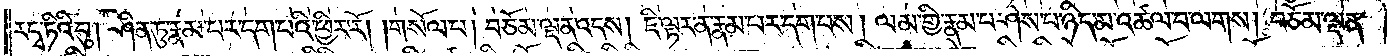ར་དྭ་ཏིའི་བུ། ཤིན་ཏུ་རྣམ་པར་དག་པའི་ཕྱིར་རོ། །གསོལ་པ། བཅོམ་ལྡན་འདས། ཇི་ལྟར་ན་རྣམ་པར་དག་པས། ལམ་གྱི་རྣམ་པ་ཤེས་པ་ཉིད་མ་འཚལ་བ་ལགས། བཅོམ་ལྡན་
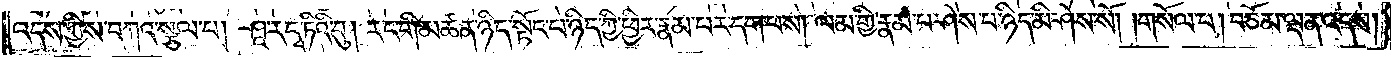འདས་ཀྱིས་བཀའ་སྩལ་པ། ཤཱ་ར་དྭ་ཏིའི་བུ། རང་གི་མཚན་ཉིད་སྟོང་པ་ཉིད་ཀྱི་ཕྱིར་རྣམ་པར་དག་པས། ལམ་གྱི་རྣམ་པ་ཤེས་པ་ཉིད་མི་ཤེས་སོ། །གསོལ་པ། བཅོམ་ལྡན་འདས།
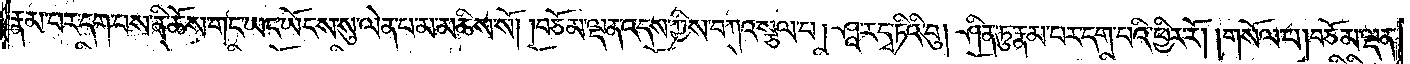རྣམ་པར་དག་པས་ནི་ཆོས་གང་ཡང་ཡོངས་སུ་ལེན་པ་མ་མཆིས་སོ། །བཅོམ་ལྡན་འདས་ཀྱིས་བཀའ་སྩལ་པ། ཤཱ་ར་དྭ་ཏིའི་བུ། ཤིན་ཏུ་རྣམ་པར་དག་པའི་ཕྱིར་རོ། །གསོལ་པ། བཅོམ་ལྡན་
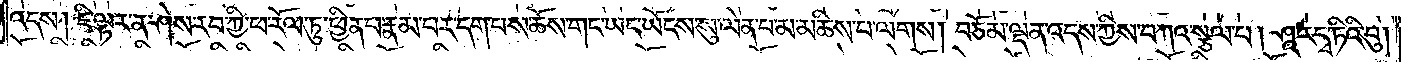འདས། ཇི་ལྟར་ན་ཤེས་རབ་ཀྱི་ཕ་རོལ་ཏུ་ཕྱིན་པ་རྣམ་པར་དག་པས་ཆོས་གང་ཡང་ཡོངས་སུ་ལེན་པ་མ་མཆིས་པ་ལགས། བཅོམ་ལྡན་འདས་ཀྱིས་བཀའ་སྩལ་པ། ཤཱ་ར་དྭ་ཏིའི་བུ།
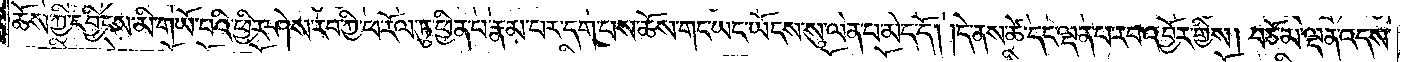ཆོས་ཀྱི་དབྱིངས་མི་གཡོ་བའི་ཕྱིར་ཤེས་རབ་ཀྱི་ཕ་རོལ་ཏུ་ཕྱིན་པ་རྣམ་པར་དག་པས་ཆོས་གང་ཡང་ཡོངས་སུ་ལེན་པ་མེད་དོ། །དེ་ནས་ཚེ་དང་ལྡན་པ་རབ་འབྱོར་གྱིས། བཅོམ་ལྡན་འདས་
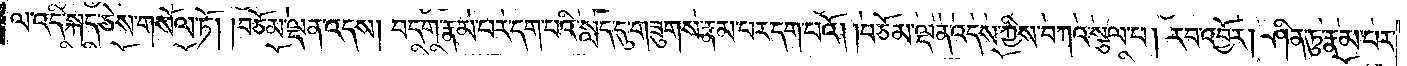ལ་འདི་སྐད་ཅེས་གསོལ་ཏོ། །བཅོམ་ལྡན་འདས། བདག་རྣམ་པར་དག་པའི་སླད་དུ་གཟུགས་རྣམ་པར་དག་པའོ། །བཅོམ་ལྡན་འདས་ཀྱིས་བཀའ་སྩལ་པ། རབ་འབྱོར། ཤིན་ཏུ་རྣམ་པར་
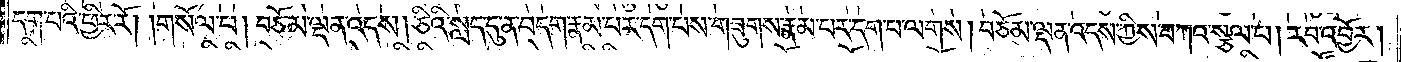དག་པའི་ཕྱིར་རོ། །གསོལ་པ། བཅོམ་ལྡན་འདས། ཅིའི་སླད་དུ་ནི་བདག་རྣམ་པར་དག་པས་གཟུགས་རྣམ་པར་དག་པ་ལགས། བཅོམ་ལྡན་འདས་ཀྱིས་བཀའ་སྩལ་པ། རབ་འབྱོར།
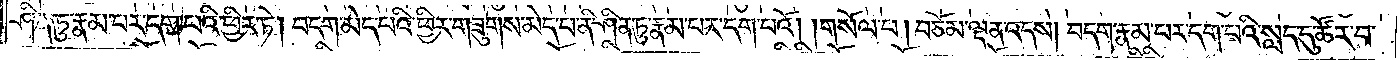ཤིན་ཏུ་རྣམ་པར་དག་པའི་ཕྱིར་ཏེ། བདག་མེད་པའི་ཕྱིར་གཟུགས་མེད་པ་ནི་ཤིན་ཏུ་རྣམ་པར་དག་པའོ། །གསོལ་པ། བཅོམ་ལྡན་འདས། བདག་རྣམ་པར་དག་པའི་སླད་དུ་ཚོར་བ་
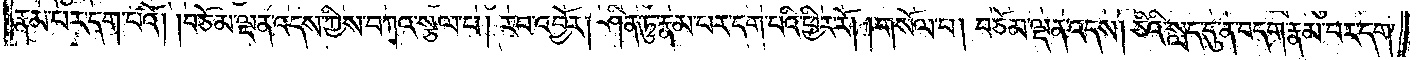རྣམ་པར་དག་པའོ། །བཅོམ་ལྡན་འདས་ཀྱིས་བཀའ་སྩལ་པ། རབ་འབྱོར། ཤིན་ཏུ་རྣམ་པར་དག་པའི་ཕྱིར་རོ། །གསོལ་པ། བཅོམ་ལྡན་འདས། ཅིའི་སླད་དུ་ནི་བདག་རྣམ་པར་དག་
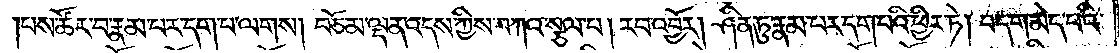པས་ཚོར་བ་རྣམ་པར་དག་པ་ལགས། བཅོམ་ལྡན་འདས་ཀྱིས་བཀའ་སྩལ་པ། རབ་འབྱོར། ཤིན་ཏུ་རྣམ་པར་དག་པའི་ཕྱིར་ཏེ། བདག་མེད་པའི་
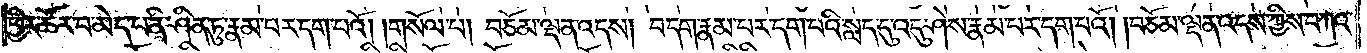ཕྱིར་ཚོར་བ་མེད་པ་ནི་ཤིན་ཏུ་རྣམ་པར་དག་པའོ། །གསོལ་པ། བཅོམ་ལྡན་འདས། བདག་རྣམ་པར་དག་པའི་སླད་དུ་འདུ་ཤེས་རྣམ་པར་དག་པའོ། །བཅོམ་ལྡན་འདས་ཀྱིས་བཀའ་
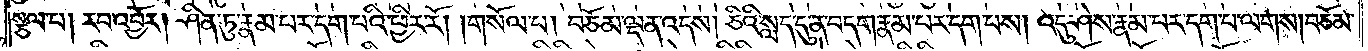སྩལ་པ། རབ་འབྱོར། ཤིན་ཏུ་རྣམ་པར་དག་པའི་ཕྱིར་རོ། །གསོལ་པ། བཅོམ་ལྡན་འདས། ཅིའི་སླད་དུ་ན་བདག་རྣམ་པར་དག་པས། འདུ་ཤེས་རྣམ་པར་དག་པ་ལགས། བཅོམ་
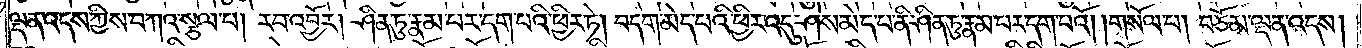ལྡན་འདས་ཀྱིས་བཀའ་སྩལ་པ། རབ་འབྱོར། ཤིན་ཏུ་རྣམ་པར་དག་པའི་ཕྱིར་ཏེ། བདག་མེད་པའི་ཕྱིར་འདུ་ཤེས་མེད་པ་ནི་ཤིན་ཏུ་རྣམ་པར་དག་པའོ། །གསོལ་པ། བཅོམ་ལྡན་འདས།
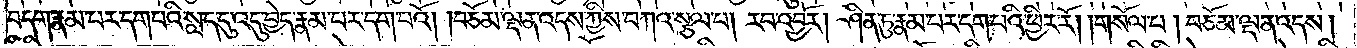བདག་རྣམ་པར་དག་པའི་སླད་དུ་འདུ་བྱེད་རྣམ་པར་དག་པའོ། །བཅོམ་ལྡན་འདས་ཀྱིས་བཀའ་སྩལ་པ། རབ་འབྱོར། ཤིན་ཏུ་རྣམ་པར་དག་པའི་ཕྱིར་རོ། །གསོལ་པ། བཅོམ་ལྡན་འདས།
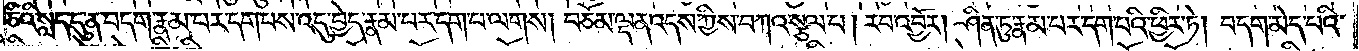ཅིའི་སླད་དུ་ན་བདག་རྣམ་པར་དག་པས་འདུ་བྱེད་རྣམ་པར་དག་པ་ལགས། བཅོམ་ལྡན་འདས་ཀྱིས་བཀའ་སྩལ་པ། རབ་འབྱོར། ཤིན་ཏུ་རྣམ་པར་དག་པའི་ཕྱིར་ཏེ། བདག་མེད་པའི་
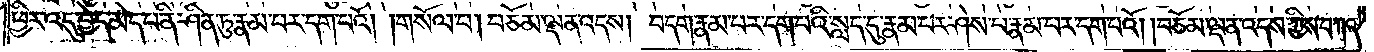ཕྱིར་འདུ་བྱེད་མེད་པ་ནི་ཤིན་ཏུ་རྣམ་པར་དག་པའོ། །གསོལ་པ། བཅོམ་ལྡན་འདས། བདག་རྣམ་པར་དག་པའི་སླད་དུ་རྣམ་པར་ཤེས་པ་རྣམ་པར་དག་པའོ། །བཅོམ་ལྡན་འདས་ཀྱིས་བཀའ་
